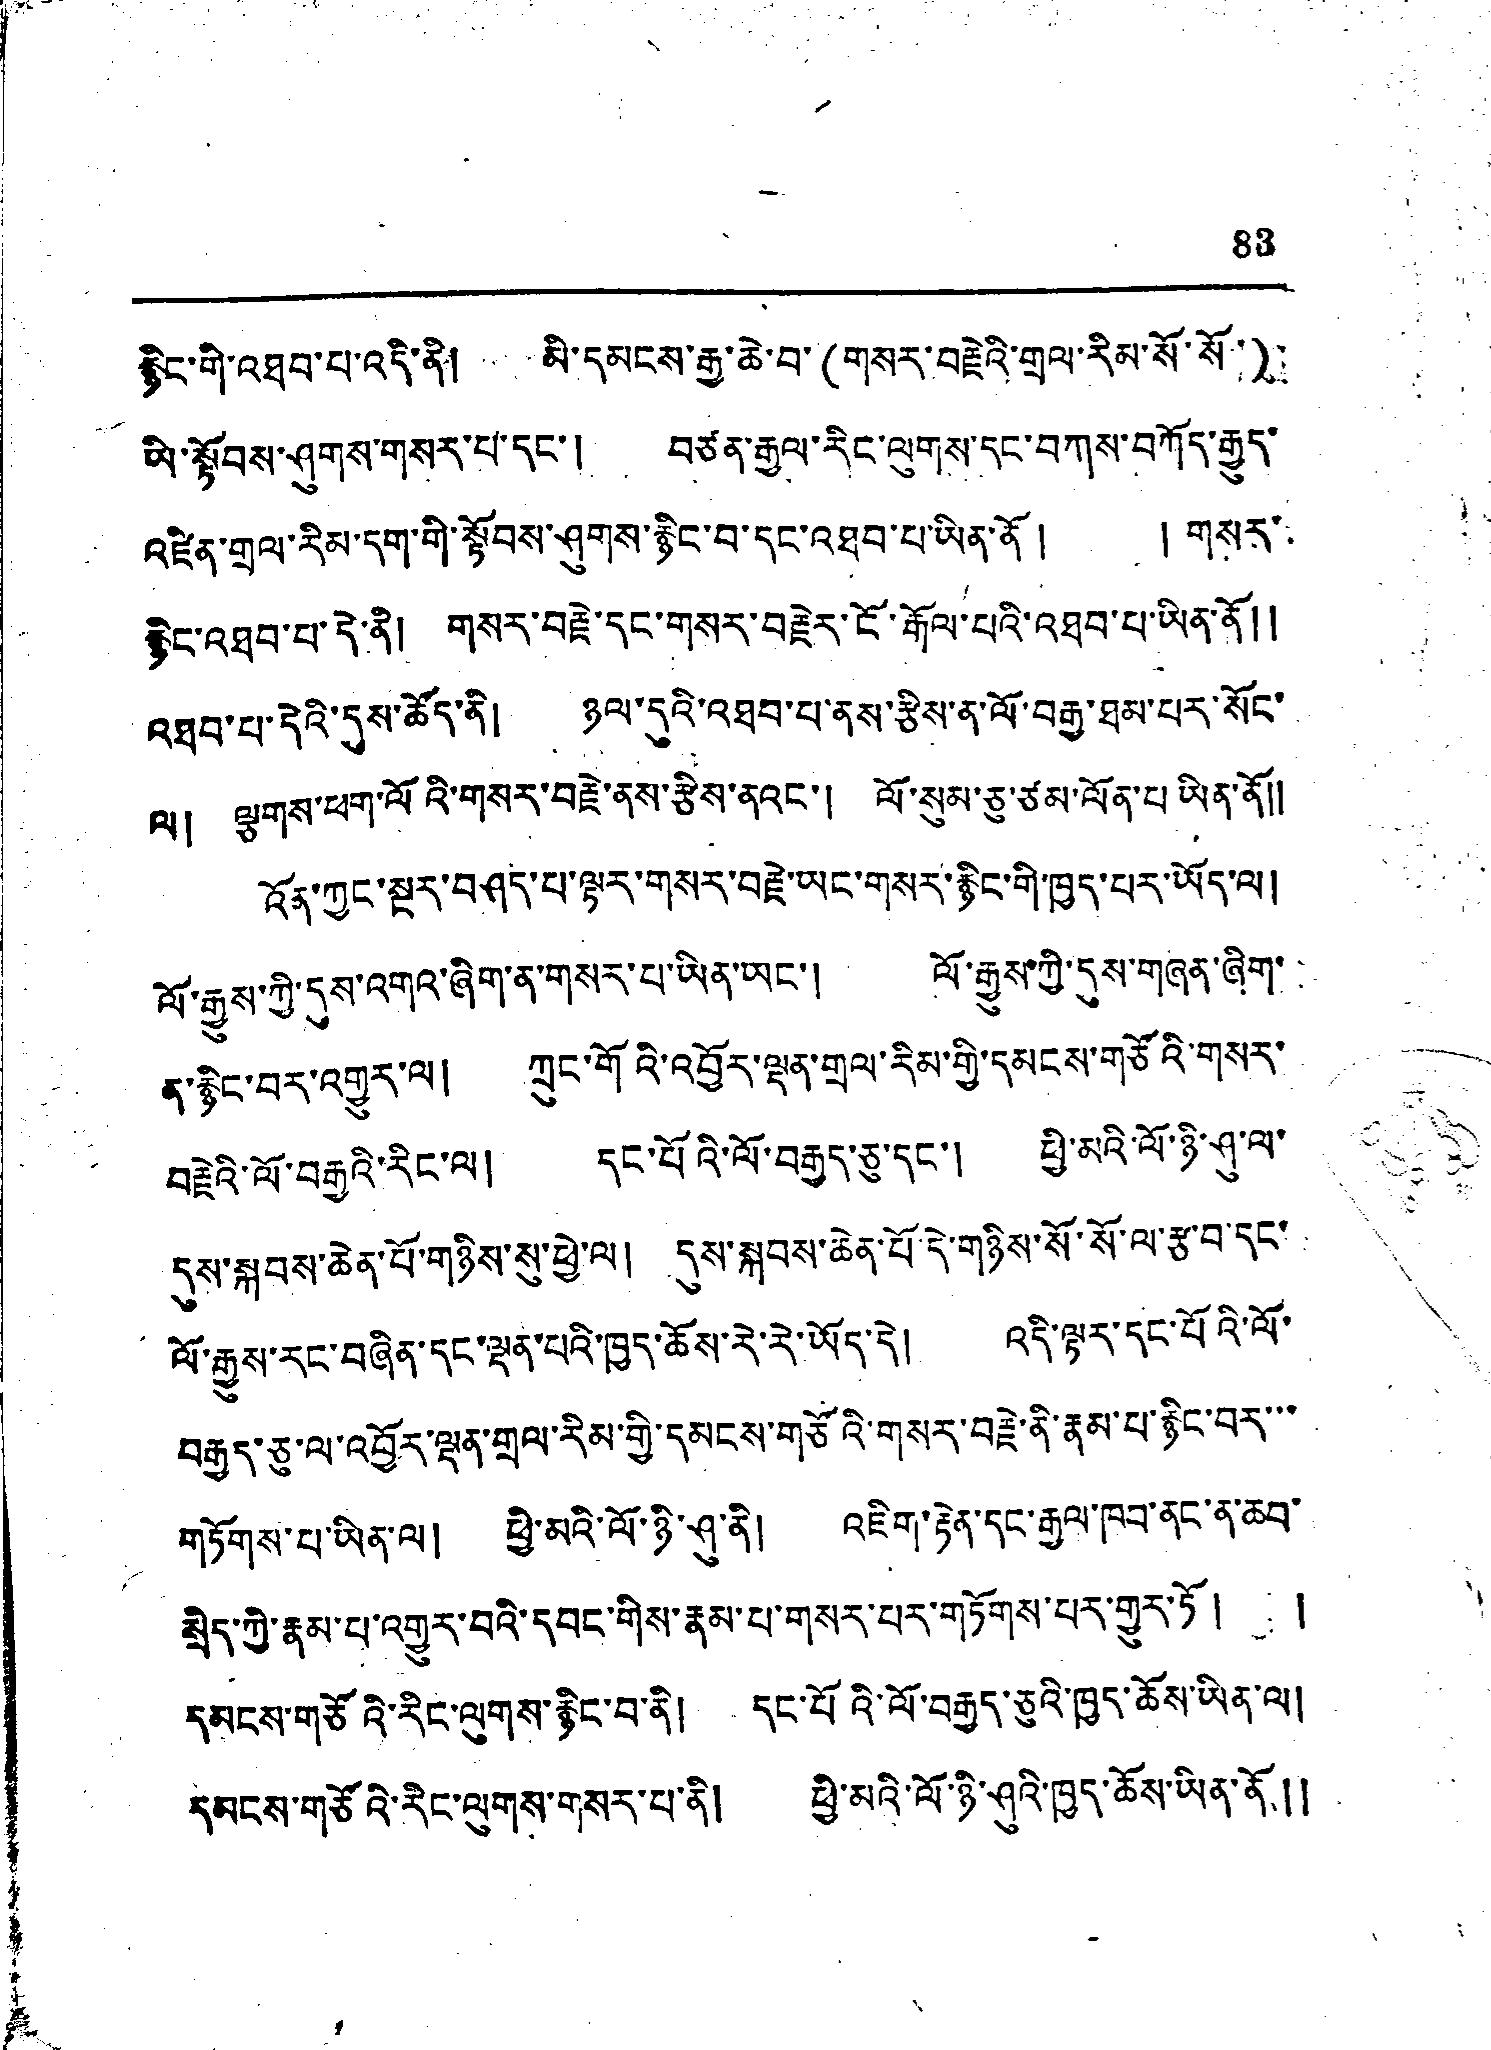83
རྙིང་གི་འཐབ་པ་འདི་ནི། མི་དམངས་རྒྱ་ཆེ་བ་(གསར་བརྗེའི་གྲལ་རིམ་སོ་སོ་)
ཡི་སྟོབས་ཤུགས་གསར་པ་དང་། བཙན་རྒྱལ་རིང་ལུགས་དང་བཀས་བཀོད་རྒྱུད་
འཛིན་གྲལ་རིམ་དག་གི་སྟོབས་ཤུགས་རྙིང་བ་དང་འཐབ་པ་ཡིན་ནོ། །གསར་
ཅིང་འཐབ་པ་དེ་ནི། གསར་བརྗེ་དང་གསར་བརྗེར་ངོ་རྒོལ་པའི་འཐབ་པ་ཡིན་ནོ།།
འཐབ་པ་དེའི་དུས་ཚོད་ནི། ཉལ་དུའི་འཐབ་པ་ནས་རྩིས་ན་ལོ་བརྒྱ་ཐམ་པར་སོང་
ལ། ལྕགས་ཕག་ལོའི་གསར་བརྗེ་ནས་རྩིས་ནའང་། ལོ་སུམ་ཅུ་ཙམ་ལོན་པ ཡིན་ནོ༎
འོན་ཀྱང་སྔར་བཤད་པ་ལྟར་གསར་བརྗེ་ཡང་གསར་རྙིང་གི་ཁྱད་པར་ཡོད་ལ།
ལོ་རྒྱུས་ཀྱི་དུས་འགའ་ཞིག་ན་གསར་པ་ཡིན་ཡང་། ལོ་རྒྱུས་ཀྱི་དུས་གཞན་ཞིག་
ད་རྙིང་བར་འགྱུར་ལ། ཀྲུང་གོའི་འབྱོར་ལྡན་གྲལ་རིམ་གྱི་དམངས་གཙོའི་གསར་
བརྗེའི་ལོ་བརྒྱའི་རིང་ལ། དང་པོའི་ལོ་བརྒྱད་ཅུ་དང་། ཕྱི་མའི་ལོ་ཉི་ཤུ་ལ་
དུས་སྐབས་ཆེན་པོ་གཉིས་སུ་ཕྱེ་ལ། དུས་སྐབས་ཆེན་པོ་དེ་གཉིས་སོ་སོ་ལ་རྩ་བ་དང་
ལོ་རྒྱུས་རང་བཞིན་དང་ལྡན་པའི་ཁྱད་ཆོས་རེ་རེ་ཡོད་དེ། འདི་ལྟར་དང་པོའི་ལོ་
བརྒྱད་ཅུ་ལ་འབྱོར་ལྡན་གྲལ་རིམ་གྱི་དམངས་གཙོའི་གསར་བརྗེ་ནི་རྣམ་པ་རྙིང་བར་་་
གཏོགས་པ་ཡིན་ལ། ཕྱི་མའི་ལོ་ཉི་ཤུ་ནི། འཇིག་རྟེན་དང་རྒྱལ་ཁབ་ནང་ན་ཆབ་
སྲིད་ཀྱི་རྣམ་པ་འགྱུར་བའི་དབང་གིས་རྣམ་པ་གསར་པར་གཏོགས་པར་གྱུར་ཏོ། །
དམངས་གཙོའི་རིང་ལུགས་རྙིང་བ་ནི། དང་པོའི་ལོ་བརྒྱད་ཅུའི་ཁྱད་ཆོས་ཡིན་ལ།
དབུངས་གཙོའི་རིང་ལུགས་གསར་པ་ནི། ཕྱི་མའི་ལོ་ཉི་ཤུའི་ཁྱད་ཆོས་ཡིན་ནོ།།
